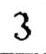3
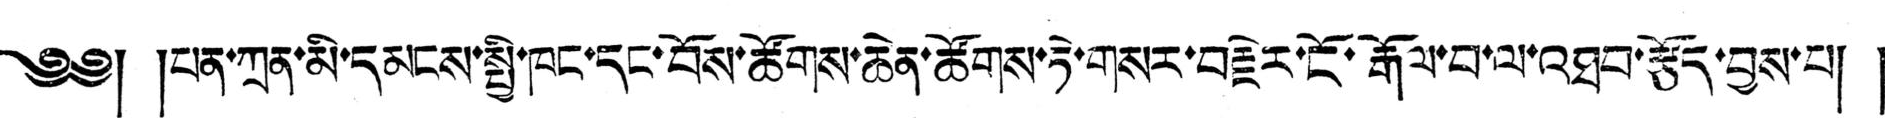༄༅། །པན་ཀྲན་མི་དམངས་སྤྱི་ཁང་དང་བོས་ཚོགས་ཆེན་ཚོགས་ཏེ་གསར་བརྗེར་ངོ་རྒོལ་བ་ལ་འཐབ་རྩོད་བྱས་པ། །
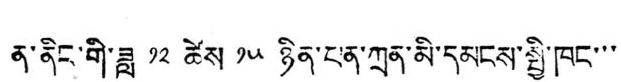ན་ནིང་གི་ཟླ ༡༢ ཚེས ༡༥ ཉིན་པན་ཀྲན་མི་དམངས་སྤྱི་ཁང་་་
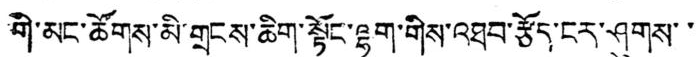གི་མང་ཚོགས་མི་གྲངས་ཆིག་སྟོང་ལྷག་གིས་འཐབ་རྩོད་ངར་ཤུགས་་
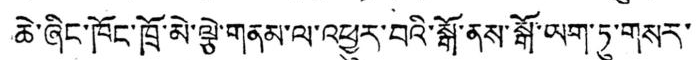ཆེ་ཞིང་ཁོང་ཁྲོ་མེ་ལྕེ་གནམ་ལ་འཕྱུར་བའི་སྒོ་ནས་སྒོ་ཡག་ཏུ་གསར་
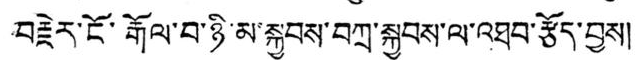བརྗེར་ངོ་རྒོལ་བ་ཉི་མ་སྐྱབས་བཀྲ་སྐྱབས་ལ་འཐབ་རྩོད་བྱས།
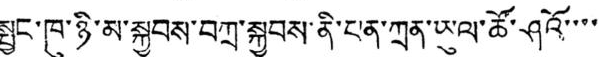སྤྱང་ཁུ་ཉི་མ་སྐྱབས་བཀྲ་སྐྱབས་ནི་པན་ཀྲན་ཡུལ་ཚོ་ཤའོ་་་་
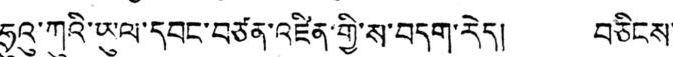ཧྲུའུ་ཀུའི་ཡུལ་དབང་བཙན་འཛིན་གྱིས་ས་བདག་རེད། བཅིངས་
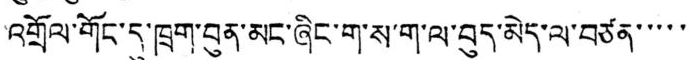འགྲོལ་གོང་དུ་ཁྲག་བུན་མང་ཞིང་ག་ས་ག་ལ་བུད་མེད་ལ་བཙན་་་་་
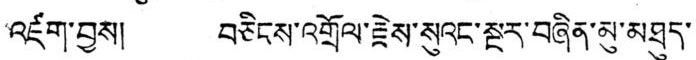འཛག་བྱས། བཅིངས་འགྲོལ་རྗེས་སུའང་སྔར་བཞིན་མུ་མཐུད་
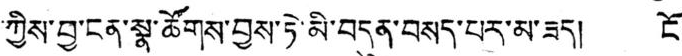ཀྱིས་བྱ་ངན་སྣ་ཚོགས་བྱས་ཏེ་མི་བདུན་བསད་པར་མ་ཟད། ངོ་
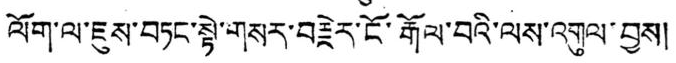ལོག་ལ་ཇུས་བཏང་སྟེ་གསར་བརྗེར་ངོ་རྒོལ་བའི་ལས་འགུལ་བྱས།
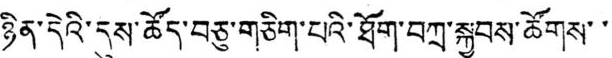ཉིན་དེའི་དུས་ཚོད་བཅུ་གཅིག་པའི་ཐོག་བཀྲ་སྐྱབས་ཚོགས་་
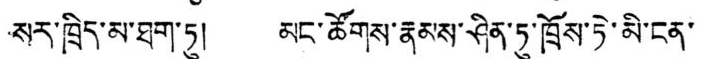སར་ཁྲིད་མ་ཐག་ཏུ། མང་ཚོགས་རྣམས་ཤིན་ཏུ་ཁྲོས་ཏེ་མི་ངན་
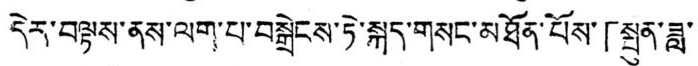དེར་བལྟས་ནས་ལག་པ་བསྒྲེངས་ཏེ་སྐད་གསང་མཐོན་པོས་「སྤུན་ཟླ་
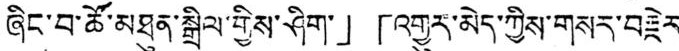ཞིང་བ་ཚོ་མཐུན་སྒྲིལ་གྱིས་ཤིག་」「འགྱུར་མེད་ཀྱིས་གསར་བརྗེར་
